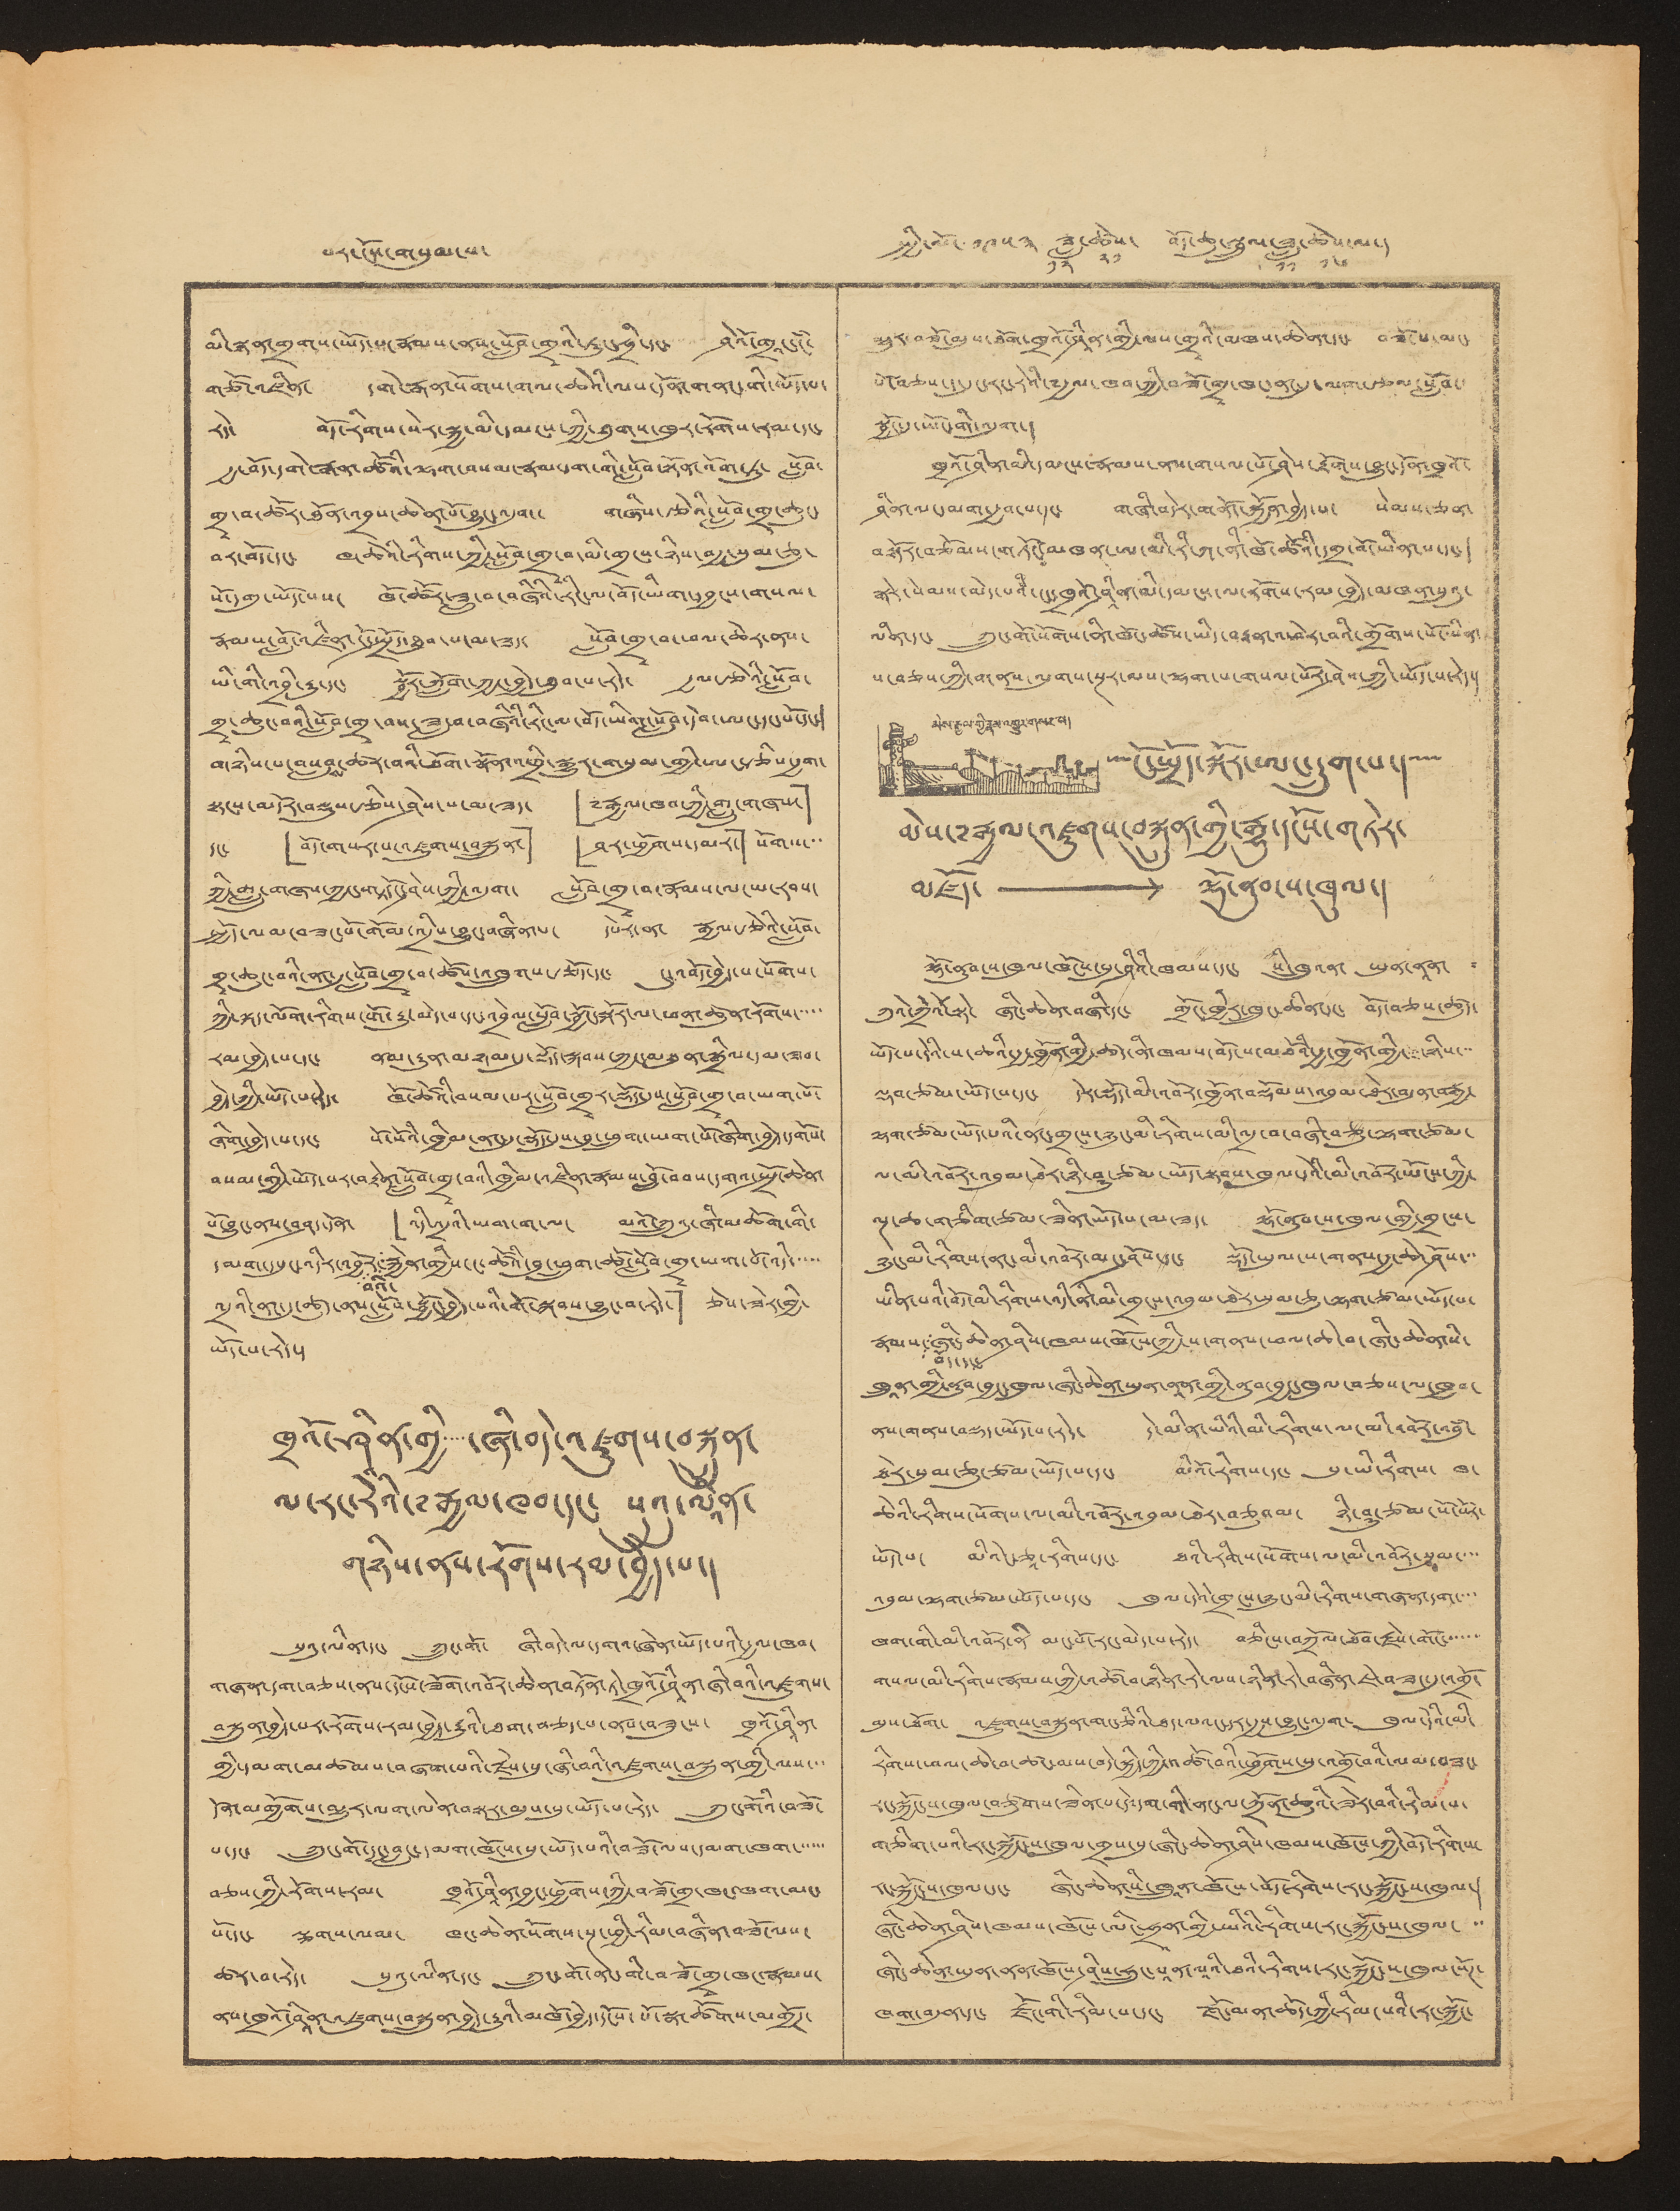པར་ངོས་གསུམ་པ་ སྤྱི་ལོ་ ༡༩༤༣ ཟླ་
༡༢
ཚེས་
༢༡
བོད་ཆུ་སྦྲུལ་ཟླ་
༡༡
ཚེས་
༡༦
ལ་།
མི་སྙན་གྲགས་ཡོད་པ་རྣམས་ནས་སློབ་གྲྭའི་ཏུ་ཧྲི་དང་ ཤེའོ་གྲའང་དཾ་
གཙོ་འཛིན་ དགེ་རྒན་སོགས་གལ་ཆེའི་ལས་དོན་གནང་གི་ཡོད་པ་
རེད་ བོད་རིགས་སེར་སྐྱ་མི་དམངས་ཀྱི་ཐུགས་ཁུར་རོགས་རམ་དང་
རྒྱ་བོད་དགེ་རྒན་ཚོའི་ལྷག་བསམ་རྣམས་དག་གི་སློབ་སྟོན་འོག་ཏུ་ སློབ་
གྲྭ་བ་ཚོར་ཐོན་འབྲས་ཆེན་པོ་བྱུང་འདུག་ གཞིས་རྩེའི་སློབ་གྲྭ་ཆུང་
བར་བོད་དང་ ཁ་ཆེའི་རིགས་ཀྱི་སློབ་གྲྭ་བ་མི་གྲངས་ཉིས་བརྒྱ་སུམ་ཅུ་
སོ་དགུ་ཡོད་པས་ ཁོ་ཚོར་ཟླ་བ་བཞིའི་རིང་ལ་བོད་ཡིག་དབྱངས་གསལ་
རྣམས་བློ་འཛིན་ངོ་སྤྲོད་ཐུབ་པ་མ་ཟད་ སློབ་གྲྭ་བ་ཕལ་ཆེར་ནས་
ཡི་གི་འབྲི་རྒྱུ་དང་ སྦྱོར་ཀློག་ཀྱང་བྱེད་ཐུབ་པ་རེད་ རྒྱལ་རྩེའི་སློབ་
གྲྭ་ཆུང་བའི་སློབ་གྲྭ་བས་ཟླ་བ་བཞིའི་རིང་ལ་བོད་ཡིག་སློབ་དེབ་ཨང་དང་པོ་དང་།
གཉིས་པ་བསླབས་ཚར་བའི་ཐོག་སྣོན་འཕྲི་སྒྱུར་གསུམ་གྱི་ཨང་རྩིས་རྒྱག་
སྟངས་མདོར་བསྡུས་རྩིས་ཤེས་པ་མ་ཟད་ 「༸རྒྱལ་ཁབ་ཀྱི་གླུ་གཞས་」
དང་ 「བོད་གསར་པ་འཛུགས་བསྐྲུན་」 「ཤར་ཕྱོགས་དམར་」སོགས་་་
ཀྱི་གླུ་གཞས་ཀྱང་གཏོང་ཤེས་ཀྱི་འདུག་ སློབ་གྲྭ་བ་རྣམས་ལ་ཡ་རབས་
སྤྱོད་ལམ་བཟང་པོ་གོམ་འདྲིས་བྱུང་བཞིན་པ་ དཔེར་ན་ རྒྱལ་རྩེའི་སློབ་
གྲྭ་ཆུང་བའི་ནང་དུ་སློབ་གྲྭ་བ་ཚོས་འཁྲུགས་རྩོད་དང་ ངུ་འབོད་བྱེད་པ་སོགས་
ཀྱི་ལྐད་ལོག་རིགས་གོ་རྒྱུ་མེད་པ་དང་འབྲེལ་སློབ་སྦྱོང་སྐོར་ལ་ཕན་ཚུན་རོགས་་་་་
རམ་བྱེད་པ་དང་ ནམ་རྒྱུན་མཉམ་དུ་སྡོད་སྐབས་ཀྱང་མཐུན་སྒྲིལ་དམམ་ཟབ་
བྱེད་ཀྱི་ཡོད་པ་རེད་ ཁོ་ཚོའི་བསམ་པར་སློབ་གྲྭར་སྡོད་དུས་སློབ་གྲྭ་བ་ཡག་པོ་
ཞིག་བྱེད་པ་དང་ སོ་སོའི་ཁྱིམ་ནང་དུ་སྡོད་དུས་བུ་ཕྲུག་ཡག་པོ་ཞིག་བྱེད་དགོས་
བསམ་གྱི་ཡོད་པར་བརྟེན་སློབ་གྲྭ་བའི་ཁྱིམ་འཛིན་རྣམས་བློ་བབས་དགའ་སྤྲོ་ཆེན་
པོ་བྱུང་ནས་བཤད་དོན་ 「འདི་འདྲའི་ཡག་ག་ལ་ མའོ་ཀྲུའུ་ཞི་མཆོག་གི་
དམག་དཔུང་འདིར་འབྱོར་
བའི་
རྐྱེན་གྱིས་ང་ཚོའི་བུ་ཕྲུག་ཚོ་སློབ་གྲྭ་ཡག་པོ་འདི་་་་་
འདྲའི་ནང་དུ་ཚུད་ནས་སློབ་སྦྱོང་བྱེད་པའི་གོ་སྐབས་བྱུང་བ་རེད་」 ཅེས་ཟེར་གྱི་
ཡོད་པ་རེད་།
ཁྲའོ་ཤིན་གྱི་་་་་ཞི་བདེ་འཛུགས་བསྐྲུན་
ལ་རང་རེའི་༸རྒྱལ་ཁབ་དང་ སུའུ་ལཱིན་
གཉིས་ནས་རོགས་རམ་བྱེད་པ་།
སུའུ་ལིན་དང་ ཀྲུང་གོ་ ཞི་བདེ་ལ་དགའ་ཞེན་ཡོད་པའི་རྒྱལ་ཁབ་
གཞན་དག་བཅས་ནས་དངོས་ཟོག་འབོར་ཆེན་བཏོན་ཏེ་ཁྲའོ་ཤཱིན་ཞི་བའི་འཛུགས་
བསྐྲུན་བྱེད་པར་རོགས་རམ་བྱེད་རྒྱུའི་ཐག་བཅད་པ་ནས་བཟུངས་ ཁྲའོ་ཤཱིན་
གྱི་དམག་མཚམས་བཞག་པའི་རྗེས་སུ་ཞི་བའི་འཛུགས་བསྐྲུན་གྱི་ལས་་་
དོན་མགྱོགས་མྱུར་ལག་ལེན་བསྟར་མུས་སུ་ཡོད་པ་རེད་ ཀྲུང་གོའི་བཟོ་
པ་དང་ ཀྲུང་གོ་དྭང་བླང་དམག་ཁོངས་སུ་ཡོད་པའི་བཟོ་ལས་དམག་ཁག་་་་་་
བཅས་ཀྱི་རོགས་རམ་ ཁྲའོ་ཤཱིན་བྱང་ཕྱོགས་ཀྱི་བཟོ་གྲ་ཁང་ཁག་མང་
པོ་དང་ ལྕགས་ལམ་ ཁང་ཆེན་སོགས་སྔ་ཕྱི་རིམ་བཞིན་བཟོ་ལས་
ཚར་བ་རེད་ སུའུ་ལིན་དང་ ཀྲུང་གོ་ནང་གི་བཟོ་གྲྭ་ཁང་རྣམས་
ནས་ཁྲའོ་ཤཱིན་འཛུགས་བསྐྲུན་བྱེད་རྒྱུའི་མཁོ་བྱེད་དངོས་པོ་སྣ་ཚོགས་མགྱོཊ་
མྱུར་བཟོ་མུས་ཐོག་ཁྲའོ་ཤཱིན་གྱི་ལས་གྲྭའི་མཁས་ཆེན་དང་ བཟོ་པ་མང་
པོ་བཅས་ད་དུང་རང་རེའི་༸རྒྱལ་ཁབ་ཀྱི་བཟོ་གྲྭ་ཁང་ནང་དུ་ལག་རྩལ་སློབ་
སྦྱོང་དུ་ཡོང་གི་འདུག་།
ཁྲའོ་ཤཱིན་མི་དམངས་རྣམས་ནས་གསལ་པོ་ཤེས་རྟོགས་བྱུང་དོན་ཁྲའོ་
ཤིན་ལ་དམག་རྒྱབ་པ་དང་ གཞི་བདེར་གནོད་སྐྱོན་བྱེད་པ་ སེམས་ཅན་
བསྟོར་བཅོམས་གཏོང་མཁན་ལ་ཨ་མི་རི་ཀ་ནི་ཁོ་ཚོའི་དགྲ་བོ་ཡིན་པ་དང་།
སྒེར་སེམས་མེད་པའི་ངང་ཁྲའོ་ཤཱིན་མི་དམངས་ལ་རོགས་རམ་བྱེད་མཁན་སུའུ་
ལིན་དང་ ཀྲུང་གོ་སོགས་ནི་ཁོང་ཚོས་ཡིད་བརྟན་འཕེར་བའི་གྲོགས་པོ་ཡིན་
པ་བཅས་ཀྱི་གནས་ལུགས་སྔར་ལས་ལྷག་པ་གསལ་པོར་ཤེས་ཀྱི་ཡོད་པ་རེད་།
མེས་རྒྱལ་གྱི་རྣམ་འགྱུར་གསར་པ་།
ངོ་སྤྲོད་སྐོར་ཨང་དྲུག་པ་།
མེས་༸རྒྱལ་འཛུགས་བསྐྲུན་གྱི་རྒྱུ་དངོས་གཏེར་
མཛོད་⟶ལྷོ་ནུབ་ས་ཁུལ་།
ལྷོ་ནུབ་ས་ཁུལ་ཁོངས་སུ་ཤིའི་ཁམས་དང་ སི་ཁྲུའན་ ཡུན་ནཱན་
ཀུའེ་ཀྲེའོ་སྟེ་ ཞིང་ཆེན་བཞི་དང་ གྲོང་ཁྱེར་ཁྲུང་ཆིན་དང་ བོད་བཅས་ཚུད་
ཡོད་པ་དེའི་ས་ཆའི་རྒྱ་ཁྱོན་གྱི་ཚད་ནི་ཁམས་བོད་ས་མཐོའི་རྒྱ་ཁྱོན་གྱི་་་ཉིས་་་
ལྡབ་ཙམ་ཡོད་པ་དང་ དེར་སྡོད་མི་འབོར་ཁྱོན་བསྡོམས་འབུམ་ཐེར་བདུན་བརྒྱ་
ལྷག་ཙམ་ཡོད་པའི་ནང་གྲངས་ཉུང་མི་རིགས་མི་འདྲ་བ་བཞི་བཅུ་ལྷག་ཙམ་
ལ་མི་འབོར་འབུམ་ཐེར་ཉི་ཤུ་ཙམ་ཡོད་སྟབས་ཁུལ་དེའི་མི་འབོར་ཡོངས་ཀྱི་
ལྔ་ཆ་གཅིག་ཙམ་ཟིན་ཡོད་པ་མ་ཟད་ ལྷོ་ནུབ་ས་ཁུལ་གྱི་གྲངས་
ཉུང་མི་རིགས་ནང་མི་འབོར་མང་ཤོས་དང་ སྡོད་ཡུལ་ས་གནས་རྒྱ་ཆེ་ཤོས་་་
ཡིན་པའི་བོད་མི་རིགས་འདི་ནི་མི་གྲངས་འབུམ་ཐེར་སུམ་ཅུ་ལྷག་ཙམ་ཡོད་པ་
རྣམས་
བོད་དང་
ཞིང་ཆེན་ཤིས་ཁམས་ཁོངས་ཀྱི་ས་གནས་ཕལ་ཆེ་བ་ཞིང་ཆེན་སི་
ཁྲུནཱ་གྱི་ནུབ་བྱང་ཁུལ་ཞིང་ཆེན་ཡུན་ནཱན་གྱི་ནུབ་བྱང་ཁུལ་བཅས་ལ་ཁྱབ་
ནས་གནས་བསྡད་ཡོད་པ་རེད་ དེ་མིན་ཡིའི་མི་རིགས་ལ་མི་འབོར་འབུཾ་
ཐེར་སུམ་ཅུ་ཙམ་ཡོད་པ་དང་ མིའོ་རིགས་དང་ སུ་ཡི་རིགས་ ཁ་
ཆེའི་རིགས་སོགས་ལ་མི་འབོར་འབུམ་ཐེར་བཅུའམ་ ཉི་ཤུ་ཙམ་སོ་སོར་
ཡོད་པ་ མིའེང་ཅཱ་རིགས་དང་ ཐའི་རིགས་སོགས་ལ་མི་འབོར་སུམ་་་་
འབུམ་ལྷག་ཙམ་ཡོད་པ་དང་ ཁུལ་དེའི་གྲངས་ཉུང་མི་རིགས་གཞན་དག་་་་
ཁག་གི་མི་འབོར་ནི་ མང་པོ་རང་མེད་པ་རེད་ བཅིངས་བཀྲོལ་ཐོབ་རྗེས་གོང་་་་་་
གསལ་མི་རིགས་རྣམས་ཀྱི་འཚོ་བ་ཉིན་རེ་ལས་ཉིན་རེ་བཞིན་ཇེ་བཟང་དུ་འགྲོ་
མུས་ཐོག་ འཛུགས་བསྐྲུན་གང་ཅིའི་ཐད་ལའང་དར་རྒྱས་བྱུང་འདུག་ ཁུལ་དེའི་མི་
རིགས་ཕལ་ཆེ་བ་ཚང་མས་བདེ་སྐྱིད་ཀྱི་འཚོ་བའི་ཕྱོགས་སུ་འགྲོ་བའི་ལམ་བཟང་
རང་སྐྱོང་ས་ཁུལ་བཙུགས་ཟིན་པ་དེ་དག་གི་ནང་ལ་ཀྲོན་ཆུའི་ཟེར་བའི་རིམ་པ་
གཅིག་པའི་རང་སྐྱོང་ས་ཁུལ་གྲས་སུ་ཞིང་ཆེན་ཤིས་ཁམས་ཁོངས་ཀྱི་བོད་རིགས་
རང་སྐྱོང་ས་ཁུལ་དང་ ཞིང་ཆེན་སི་ཁྲུའན་ཁོངས་བོད་རིགས་རང་སྐྱོང་ས་ཁུལ་།
ཞིང་ཆེན་ཤིས་ཁམས་ཁོངས་ལིང་ཧྲཱན་གྱི་ཡིའི་རིགས་རང་སྐྱོང་ས་ཁུལ་ ་་
ཞིང་ཆེན་ཡུན་ནན་ཁོངས་ཤིས་ཧྲུང་པཱན་ལའི་ཐའི་རིགས་རང་སྐྱོང་ས་ཁུལ་སོཊ་
ཁག་བདུན་དང་ རྫོང་གི་རིམ་པ་དང་ རྫོང་མན་ཆོད་ཀྱི་རིམ་པའི་རང་སྐྱོང་
